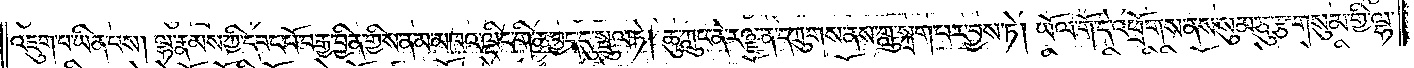འཇུག་པ་ཡིན་པས། ལྷ་རྣམས་ཀྱི་དབང་པོ་བརྒྱ་བྱིན་གྱིས་ནམ་མཁའ་ལྡིང་གི་ཆ་བྱད་དུ་སྤྲུལ་ཏེ། ཆུ་ཀླུང་ནེ་རཉྫ་ན་དཀྲུགས་ནས་ཀླུ་སྐྲག་པར་བྱས་ཏེ། ཡོལ་གོ་དེ་འཕྲོགས་ནས་སུམ་ཅུ་རྩ་གསུམ་གྱི་ལྷ་
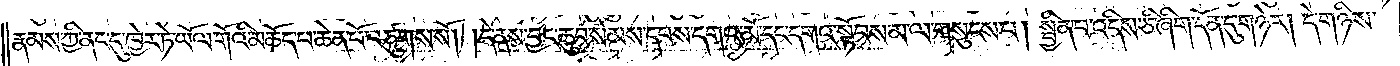རྣམས་ཀྱི་ནང་དུ་ཁྱེར་ཏེ་ཡོལ་གོའི་མཆོད་པ་ཆེན་པོ་བཙུགས་སོ། །དེ་ནས་བྱང་ཆུབ་སེམས་དཔས་དགའ་མོ་དང་དགའ་སྟོབས་མ་ལ་གསུངས་པ། སྦྱིན་པ་འདིས་ཅི་ཞིག་དོན་དུ་གཉེར། དེ་གཉིས་
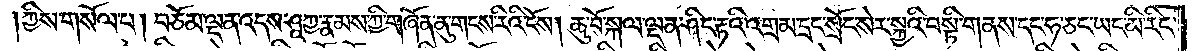ཀྱིས་གསོལ་པ། བཅོམ་ལྡན་འདས་ཤཱཀྱ་རྣམས་ཀྱི་གཞོན་ནུ་གངས་རིའི་ངོས། ཆུ་བོ་སྐལ་ལྡན་ཤིང་རྟའི་འགྲམ་དྲང་སྲོང་སེར་སྐྱའི་བསྟི་གནས་དང་ཧ་ཅང་ཡང་མི་རིང་
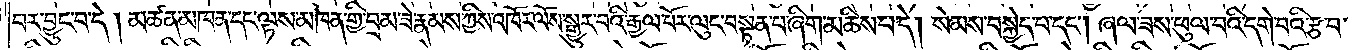བར་བྱུང་བ་དེ། མཚན་མཁན་དང་ལྟས་མཁན་གྱི་བྲམ་ཟེ་རྣམས་ཀྱིས་འཁོར་ལོས་སྒྱུར་བའི་རྒྱལ་པོར་ལུང་བསྟན་ཞིག་མཆིས་པ་དེ། སེམས་བསྐྱེད་པ་དང༌། ཞལ་ཟས་ཕུལ་བའི་དགེ་བའི་རྩ་བ་
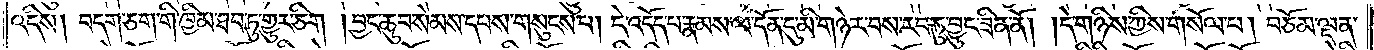འདིས། བདག་ཅག་གི་ཁྱིམ་ཐབ་ཏུ་གྱུར་ཅིག །བྱང་ཆུབ་སེམས་དཔས་གསུངས་པ། དེ་འདོད་པ་རྣམས་ལ་དོན་དུ་མི་མཉེར་བས་རབ་ཏུ་བྱུང་ཟིན་ནོ། །དེ་གཉིས་ཀྱིས་གསོལ་བ། བཅོམ་ལྡན་
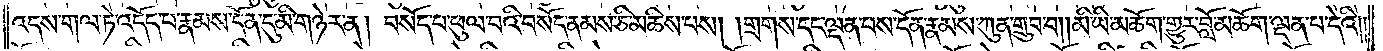འདས་གལ་ཏེ་འདོད་པ་རྣམས་དོན་དུ་མི་གཉེར་ན། བསོད་པ་ཕུལ་བའི་བསོད་ནམས་ཅི་མཆིས་པས། །གྲགས་དང་ལྡན་པས་དོན་རྣམས་ཀུན་གྲུབ་བ། །མི་ཡི་མཆོག་གྱུར་བློ་མཆོག་ལྡན་པ་དེའི༎
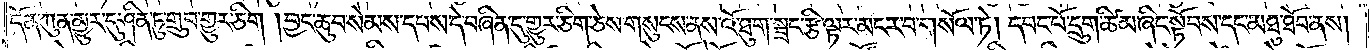དོན་ཀུན་མྱུར་དུ་ཤིན་ཏུ་གྲུབ་གྱུར་ཅིག །བྱང་ཆུབ་སེམས་དཔས་དེ་བཞིན་དུ་གྱུར་ཅིག་ཅེས་གསུངས་ནས་འོ་ཐུག་སྦྲང་རྩི་ལྟར་མངར་བ་གསོལ་ཏེ། དབང་པོ་དྲུག་ཚིམ་ཞིང་སྟོབས་དང་མཐུ་ཐོབ་ནས།
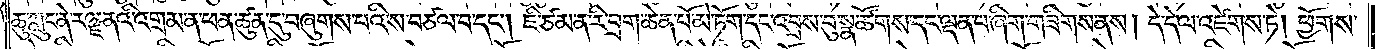ཆུ་ཀླུང་ནེ་རཉྫ་ནའི་འགྲམ་ན་ཕན་ཚུན་དུ་བཞུགས་པའི་ས་བཙལ་བ་དང༌། ཇི་ཙམ་ན་རི་བྲག་ཆེན་པོ་མེ་ཏོག་དང་འབྲས་བུ་སྣ་ཚོགས་དང་ལྡན་པ་ཞིག་གཟིགས་ནས། དེ་དེ་ལ་འཛེགས་ཏེ། ཕྱོགས་
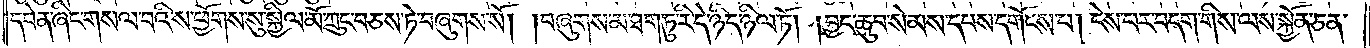དབེན་ཞིང་གསལ་བའི་ས་ཕྱོགས་སུ་སྐྱིལ་མོ་ཀྲུང་བཅས་ཏེ་བཞུགས་སོ། །བཞུགས་མ་ཐག་ཏུ་རི་དེ་ཉིད་ཉིལ་ཏོ། །བྱང་ཆུབ་སེམས་དཔས་དགོངས་པ། ངེས་པར་བདག་གིས་ལས་སྐྱོན་ཅན་
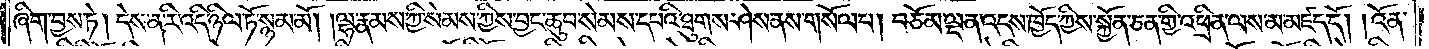ཞིག་བྱས་ཏེ། དེས་ན་རི་འདི་ཉིལ་ཏོ་སྙམ་མོ། །ལྷ་རྣམས་ཀྱི་སེམས་ཀྱིས་བྱང་ཆུབ་སེམས་དཔའི་ཐུགས་ཤེས་ནས་གསོལ་པ། བཅོམ་ལྡན་འདས་ཁྱོད་ཀྱིས་སྐྱོན་ཅན་གྱི་འཕྲིན་ལས་མ་མཛད་དོ། །འོན་
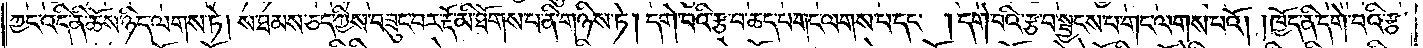ཀྱང་འདི་ནི་ཆོས་ཉིད་ལགས་ཏེ། ས་ཐམས་ཅད་ཀྱིས་བཟུང་བར་རྡོ་མི་ཐོགས་པ་ནི་གཉིས་ཏེ། དགེ་བའི་རྩ་བ་ཆད་པ་གང་ལགས་པ་དང༌། དགེ་བའི་རྩ་བ་སྦྱངས་པ་གང་ལགས་པའོ། །ཁྱོད་ནི་དགེ་བའི་རྩ་
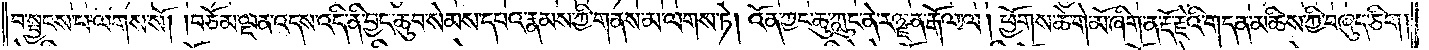བ་སྦྱངས་པ་ལགས་སོ། །བཅོམ་ལྡན་འདས་འདི་ནི་བྱང་ཆུབ་སེམས་དཔའ་རྣམས་ཀྱི་གནས་མ་ལགས་ཏེ། འོན་ཀྱང་ཆུ་ཀླུང་ནེ་རཉྫ་ན་རྒོལ་ལ། ཕྱོགས་ཆེ་གེ་མོ་ཞིག་ན་རྡོ་རྗེའི་གདན་མཆིས་ཀྱིས་བཞུད་ཅིག །
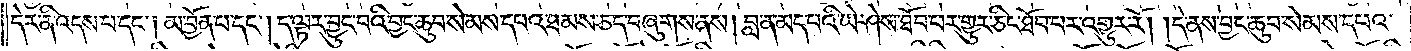དེར་ནི་འདས་པ་དང༌། མ་བྱོན་པ་དང༌། ད་ལྟར་བྱུང་བའི་བྱང་ཆུབ་སེམས་དཔའ་ཐམས་ཅད་བཞུགས་ནས། བླ་ན་མེད་པའི་ཡེ་ཤེས་ཐོབ་པར་གྱུར་ཅིང་ཐོབ་པར་འགྱུར་རོ། །དེ་ནས་བྱང་ཆུབ་སེམས་དཔའ་
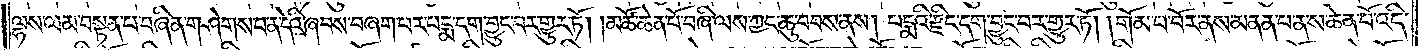ལྷས་ལམ་བསྟན་པ་བཞིན་གཤེགས་པ་ན་དེའི་ཞབས་བཞག་པར་པདྨ་དག་བྱུང་བར་གྱུར་ཏོ། །མཚོ་ཆེན་པོ་བཞི་ལས་ཀྱང་ཆུ་བབས་ནས། པདྨའི་རྫིང་དག་བྱུང་བར་གྱུར་ཏོ། །གོམ་པ་བོར་ནས་མནན་པ་ན་ས་ཆེན་པོ་འདི་
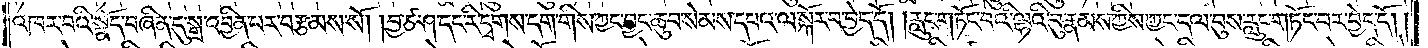འཁར་བའི་སྣོད་བཞིན་དུ་སྒྲ་འབྱིན་པར་བརྩམས་སོ། །བྱ་ཙ་ཤ་དང་རི་དྭགས་དག་གིས་ཀྱང་བྱང་ཆུབ་སེམས་དཔའ་ལ་སྐོར་བ་བྱེད་དོ། །རླུང་གཏོང་བའི་ལྷའི་བུ་རྣམས་ཀྱིས་ཀྱང་དལ་བུས་རླུང་གཏོང་བར་བྱེད་དོ༎
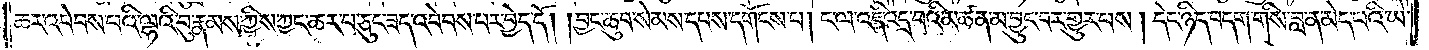ཆར་འབེབས་པའི་ལྷའི་བུ་རྣམས་ཀྱིས་ཀྱང་ཆར་པ་ཅུང་ཟད་འབེབས་པར་བྱེད་དོ། །བྱང་ཆུབ་སེམས་དཔས་དགོངས་པ། ང་ལ་འདི་འདྲ་བའི་མཚན་མ་བྱུང་བར་གྱུར་པས། དེང་ཉིད་བདག་གིས་བླ་ན་མེད་པའི་ཡེ་
